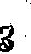3
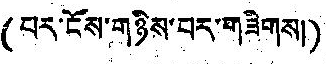(པར་ངོས་གཉིས་པར་གཟིགས།)
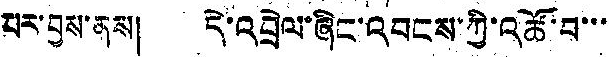པར་བྱས་ནས། དེ་འབྲེལ་ཞིང་འབངས་ཀྱི་འཚོ་བ་་་
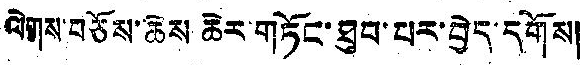ལེགས་བཅོས་ཆེས ཆེར་གཏོང་ཐུབ་པར་བྱེད་དགོས།
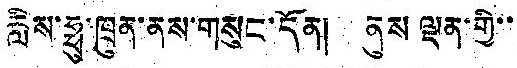རླིས་ཧྥུ་ཁྲུན་ནས་གསུང་དོན། ནུས ལྡན་གྱི་་
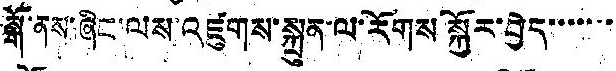སྒོ་ནས་ཞིང་ལས་འཛུགས་སྐྲུན་ལ་རོགས སྐྱོར་བྱེད་་་་་་་
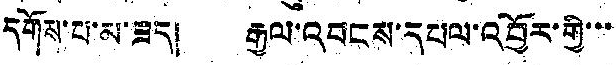དགོས་པ་མ་ཟད། རྒྱལ་འབངས་དཔལ་འབྱོར་གྱི་་་
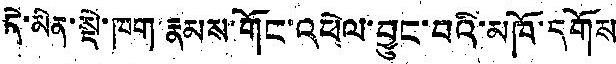དེ་མིན་སྡེ་ཁག་རྣམས་གོང་འཕེལ་བྱུང་བའི་མཁོ་དགོས
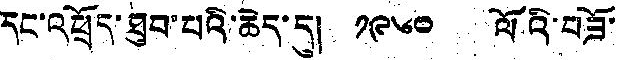དང་འཕྲོད་ཐུབ་པའི་ཆེད་དུ། ༡༩༦༠ ལོའི་བཟོ་
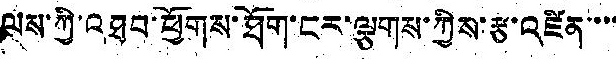ལས་ཀྱི་འཐབ་ཕྱོགས་ཐོག་ངར་ལྕགས་ཀྱིས་རྩ་འཛིན་་་་
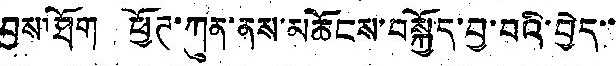བྱས་ཐོག ཕྱོཊ་ཀུན་ནས་མཆོངས་བསྐྱོད་བྱ་བའི་བྱེད་་
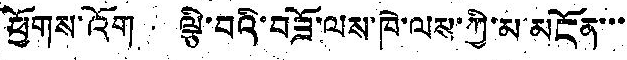ཕྱོགས་འོག ལྕི་བའི་བཟོ་ལས་ཁེ་ལས་ཀྱི་མ་མངོན་་་
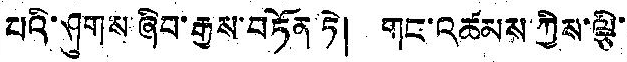པའི་ཤུགས་ཞིབ་རྒྱས་བཏོན་ཏེ། གང་འཚམས་ཀྱིས་ལྕི་
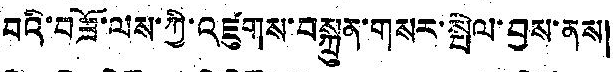བའི་བཟོ་ལས་ཀྱི་འཛུགས་བསྐྲུན་གསར་སྤེལ་བྱས་ནས།
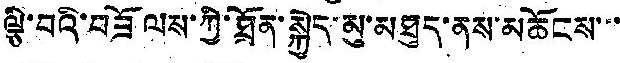ལྕི་བའི་བཟོ ལས་ཀྱི་ཐོན་སྐྱེད་མུ་མཐུད་ནས་མཆོངས་་་
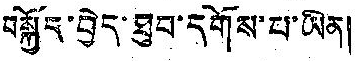བསྐྱོད་བྱེད་ཐུབ་དགོས་པ་ཡིན།
